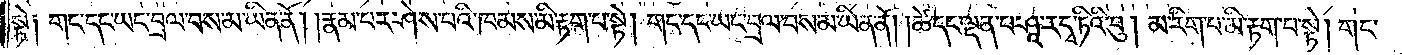སྟེ། གང་དང་ཡང་བྲལ་བས་མ་ཡིན་ནོ། །རྣམ་པར་ཤེས་པའི་ཁམས་མི་རྟག་པ་སྟེ། གང་དང་ཡང་བྲལ་བས་མ་ཡིན་ནོ། །ཚེ་དང་ལྡན་པ་ཤཱ་ར་དྭ་ཏིའི་བུ། མ་རིག་པ་མི་རྟག་པ་སྟེ། གང་
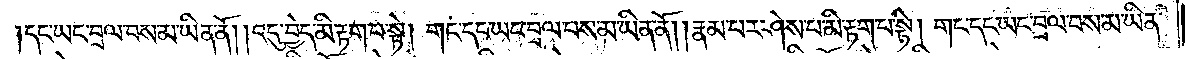དང་ཡང་བྲལ་བས་མ་ཡིན་ནོ། །འདུ་བྱེད་མི་རྟག་པ་སྟེ། གང་དང་ཡང་བྲལ་བས་མ་ཡིན་ནོ། །རྣམ་པར་ཤེས་པ་མི་རྟག་པ་སྟེ། གང་དང་ཡང་བྲལ་བས་མ་ཡིན་
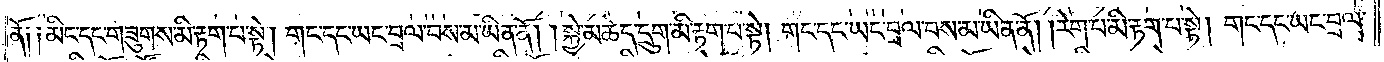ནོ༑ ༑མིང་དང་གཟུགས་མི་རྟག་པ་སྟེ། གང་དང་ཡང་བྲལ་བས་མ་ཡིན་ནོ། །སྐྱེ་མཆེད་དྲུག་མི་རྟག་པ་སྟེ། གང་དང་ཡང་བྲལ་བས་མ་ཡིན་ནོ། །རེག་པ་མི་རྟག་པ་སྟེ། གང་དང་ཡང་བྲལ་
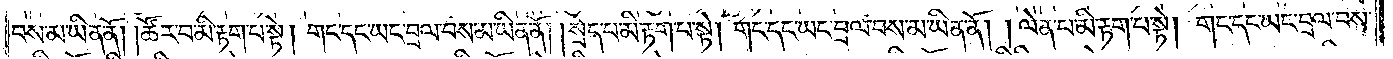བས་མ་ཡིན་ནོ། །ཚོར་བ་མི་རྟག་པ་སྟེ། གང་དང་ཡང་བྲལ་བས་མ་ཡིན་ནོ། །སྲེད་པ་མི་རྟག་པ་སྟེ། གང་དང་ཡང་བྲལ་བས་མ་ཡིན་ནོ། །ལེན་པ་མི་རྟག་པ་སྟེ། །གང་དང་ཡང་བྲལ་བས་
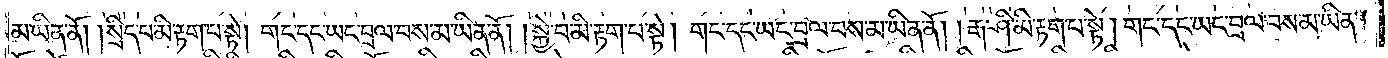མ་ཡིན་ནོ། །སྲིད་པ་མི་རྟག་པ་སྟེ། གང་དང་ཡང་བྲལ་བས་མ་ཡིན་ནོ། །སྐྱེ་བ་མི་རྟག་པ་སྟེ། གང་དང་ཡང་བྲལ་བས་མ་ཡིན་ནོ། །རྒ་ཤི་མི་རྟག་པ་སྟེ། གང་དང་ཡང་བྲལ་བས་མ་ཡིན་
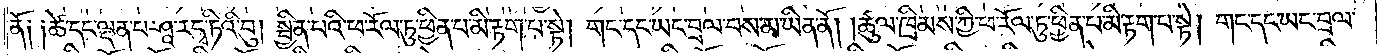ནོ༑ ༑ཚེ་དང་ལྡན་པ་ཤཱ་ར་དྭ་ཏིའི་བུ། སྤྱིན་པའི་ཕ་རོལ་ཏུ་ཕྱིན་པ་མི་རྟག་པ་སྟེ། གང་དང་ཡང་བྲལ་བས་མ་ཡིན་ནོ། །ཚུལ་ཁྲིམས་ཀྱི་ཕ་རོལ་ཏུ་ཕྱིན་པ་མི་རྟག་པ་སྟེ། གང་དང་ཡང་བྲལ་
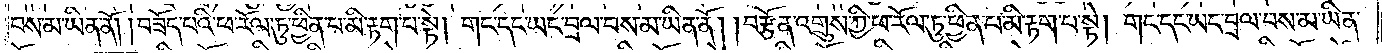བས་མ་ཡིན་ནོ། །བཟོད་པའི་ཕ་རོལ་ཏུ་ཕྱིན་པ་མི་རྟག་པ་སྟེ། གང་དང་ཡང་བྲལ་བས་མ་ཡིན་ནོ། །བརྩོན་འགྲུས་ཀྱི་ཕ་རོལ་ཏུ་ཕྱིན་པ་མི་རྟག་པ་སྟེ། གང་དང་ཡང་བྲལ་བས་མ་ཡིན་
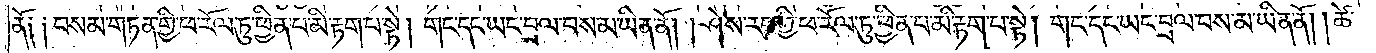ནོ༑ ༑བསམ་གཏན་གྱི་ཕ་རོལ་ཏུ་ཕྱིན་པ་མི་རྟག་པ་སྟེ། གང་དང་ཡང་བྲལ་བས་མ་ཡིན་ནོ། །ཤེས་རབ་ཀྱི་ཕ་རོལ་ཏུ་ཕྱིན་པ་མི་རྟག་པ་སྟེ། གང་དང་ཡང་བྲལ་བས་མ་ཡིན་ནོ། །ཚེ་
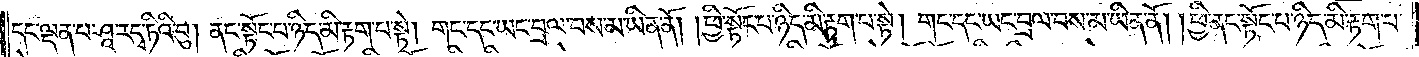དང་ལྡན་པ་ཤཱ་ར་དྭ་ཏིའི་བུ། ནང་སྟོང་པ་ཉིད་མི་རྟག་པ་སྟེ། གང་དང་ཡང་བྲལ་བས་མ་ཡིན་ནོ། །ཕྱི་སྟོང་པ་ཉིད་མི་རྟག་པ་སྟེ། གང་དང་ཡང་བྲལ་བས་མ་ཡིན་ནོ། །ཕྱི་ནང་སྟོང་པ་ཉིད་མི་རྟག་པ་
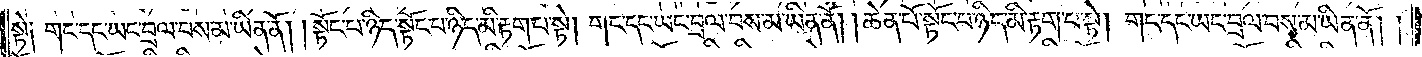སྟེ༑ གང་དང་ཡང་བྲལ་བས་མ་ཡིན་ནོ། །སྟོང་པ་ཉིད་སྟོང་པ་ཉིད་མི་རྟག་པ་སྟེ། གང་དང་ཡང་བྲལ་བས་མ་ཡིན་ནོ། །ཆེན་པོ་སྟོང་པ་ཉིད་མི་རྟག་པ་སྟེ། གང་དང་ཡང་བྲལ་བས་མ་ཡིན་ནོ། །
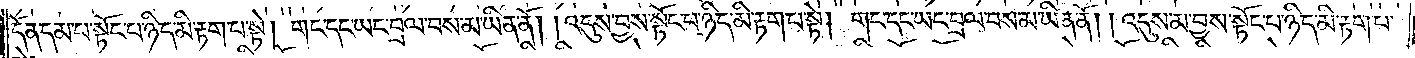དོན་དམ་པ་སྟོང་པ་ཉིད་མི་རྟག་པ་སྟེ། གང་དང་ཡང་བྲལ་བས་མ་ཡིན་ནོ། །འདུས་བྱས་སྟོང་པ་ཉིད་མི་རྟག་པ་སྟེ། གང་དང་ཡང་བྲལ་བས་མ་ཡིན་ནོ། །འདུས་མ་བྱས་སྟོང་པ་ཉིད་མི་རྟག་པ་
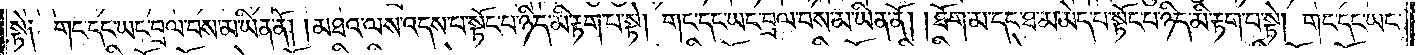སྟེ༑ གང་དང་ཡང་བྲལ་བས་མ་ཡིན་ནོ། །མཐའ་ལས་འདས་པ་སྟོང་པ་ཉིད་མི་རྟག་པ་སྟེ། གང་དང་ཡང་བྲལ་བས་མ་ཡིན་ནོ། །ཐོག་མ་དང་ཐ་མ་མེད་པ་སྟོང་པ་ཉིད་མི་རྟག་པ་སྟེ། གང་དང་ཡང་
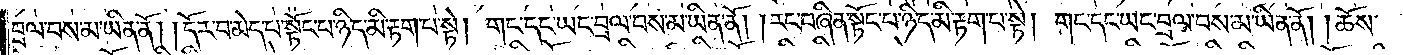བྲལ་བས་མ་ཡིན་ནོ། །དོར་བ་མེད་པ་སྟོང་པ་ཉིད་མི་རྟག་པ་སྟེ། གང་དང་ཡང་བྲལ་བས་མ་ཡིན་ནོ། །རང་བཞིན་སྟོང་པ་ཉིད་མི་རྟག་པ་སྟེ། གང་དང་ཡང་བྲལ་བས་མ་ཡིན་ནོ། །ཆོས་
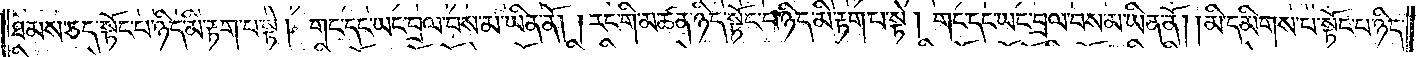ཐམས་ཅད་སྟོང་པ་ཉིད་མི་རྟག་པ་སྟེ། གང་དང་ཡང་བྲལ་བས་མ་ཡིན་ནོ། །རང་གི་མཚན་ཉིད་སྟོང་པ་ཉིད་མི་རྟག་པ་སྟེ། གང་དང་ཡང་བྲལ་བས་མ་ཡིན་ནོ། །མི་དམིགས་པ་སྟོང་པ་ཉིད་
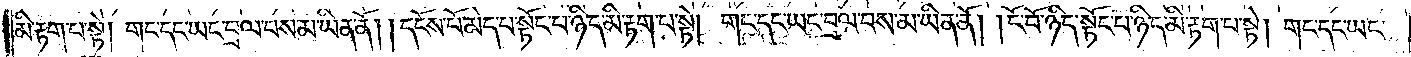མི་རྟག་པ་སྟེ། གང་དང་ཡང་བྲལ་བས་མ་ཡིན་ནོ། །དངོས་པོ་མེད་པ་སྟོང་པ་ཉིད་མི་རྟག་པ་སྟེ། གང་དང་ཡང་བྲལ་བས་མ་ཡིན་ནོ། །ངོ་བོ་ཉིད་སྟོང་པ་ཉིད་མི་རྟག་པ་སྟེ། གང་དང་ཡང་
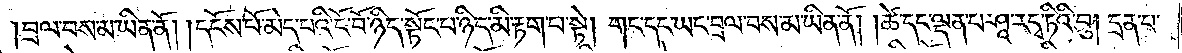བྲལ་བས་མ་ཡིན་ནོ། །དངོས་པོ་མེད་པའི་ངོ་བོ་ཉིད་སྟོང་པ་ཉིད་མི་རྟག་པ་སྟེ། གང་དང་ཡང་བྲལ་བས་མ་ཡིན་ནོ། །ཚེ་དང་ལྡན་པ་ཤཱ་ར་དྭ་ཏིའི་བུ། དྲན་པ་
